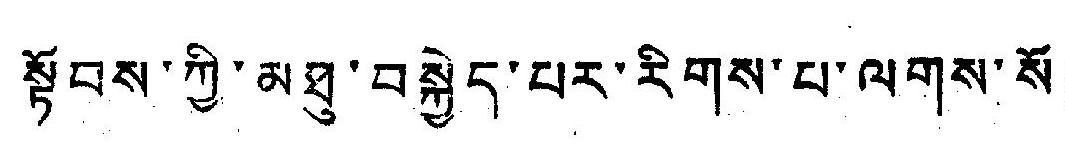སྟོབས་ཀྱི་མཐུ་བསྐྱེད་པར་རིགས་པ་ལགས་སོ།
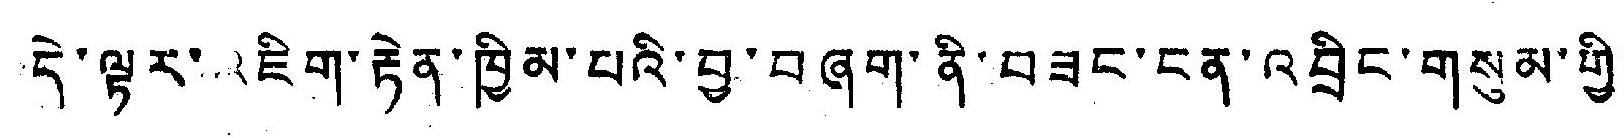དེ་ལྟར་འཇིག་རྟེན་ཁྱིམ་པའི་བྱ་བཞག་ནི་བཟང་ངན་འབྲིང་གསུམ་གྱི་
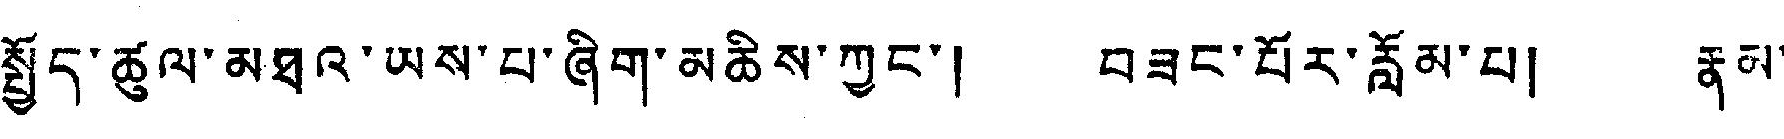སྤྱོད་ཚུལ་མཐའ་ཡས་པ་ཞིག་མཆིས་ཀྱང་། བཟང་པོར་རློམ་པ། ནམ་
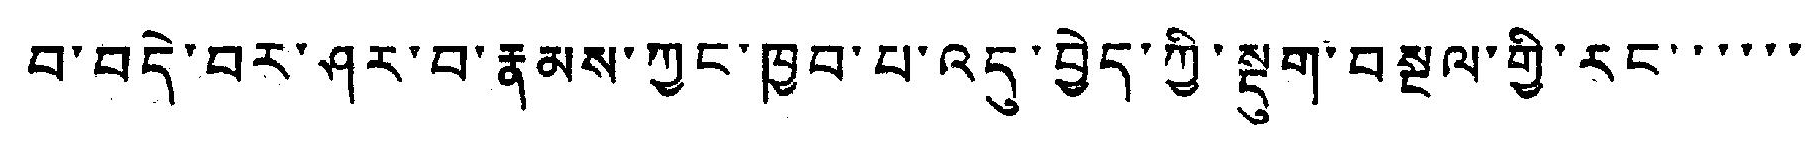བ་བདེ་བར་ཤར་བ་རྣམས་ཀྱང་ཁྱབ་པ་འདུ་བྱེད་ཀྱི་སྡུག་བསྔལ་གྱི་རང་་་་་་
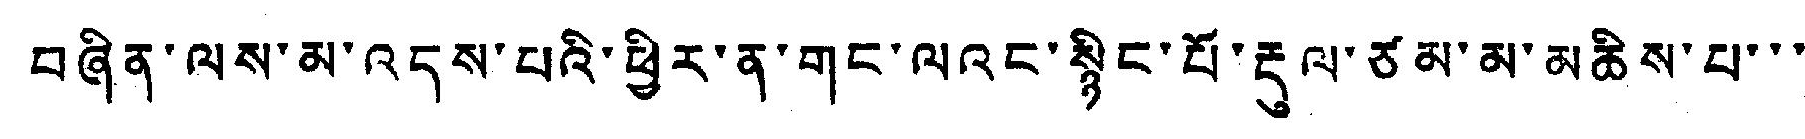བཞིན་ལས་མ་འདས་པའི་ཕྱིར་ན་གང་ལའང་སྙིང་པོ་རྡུལ་ཙམ་མ་མཆིས་པ་་་
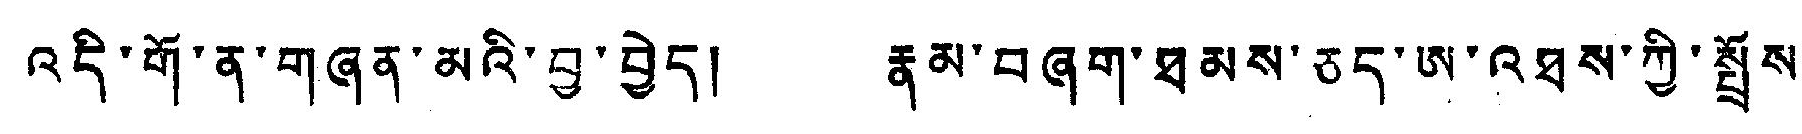འདི་གོ་ན་གཞན་མའི་བྱ་བྱེད། རྣམ་བཞག་ཐམས་ཅད་ཨ་འཐས་ཀྱི་སྤྲོས་
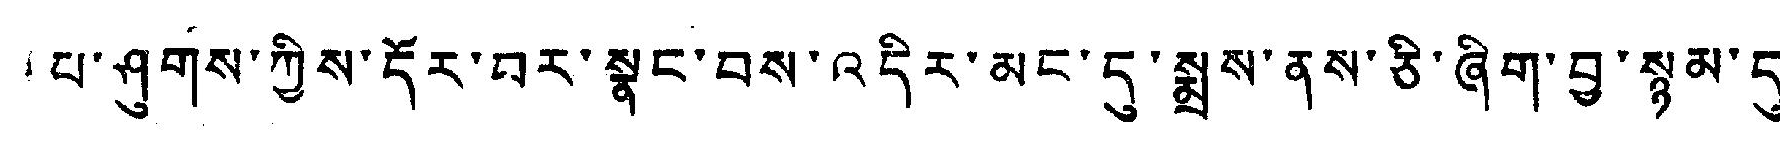པ་ཤུགས་ཀྱིས་དོར་བར་སྣང་བས་འདིར་མང་དུ་སྨྲས་ནས་ཅི་ཞིག་བྱ་སྙམ་དུ་་
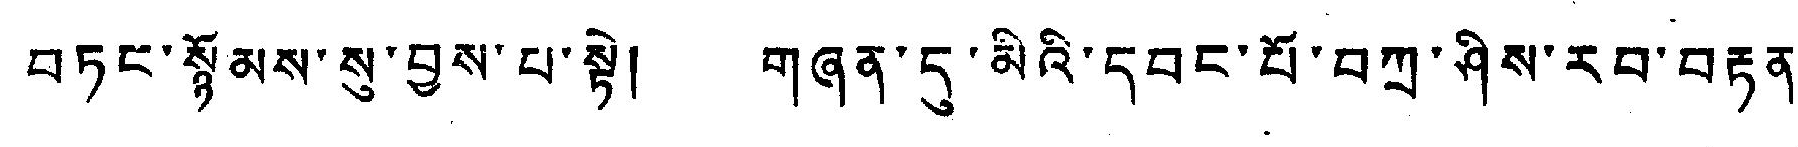བཏང་སྙོམས་སུ་བྱས་པ་སྟེ། གཞན་དུ་མིའི་དབང་པོ་བཀྲ་ཤིས་རབ་བརྟན་
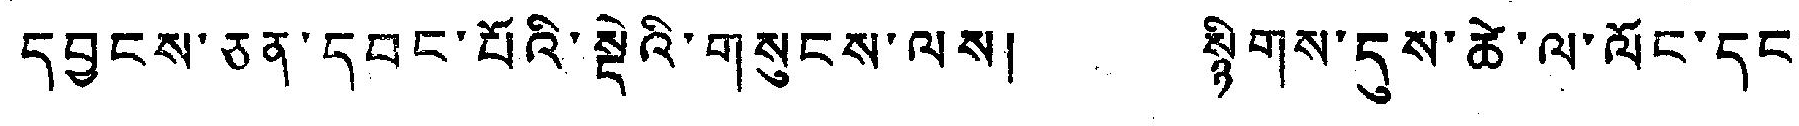དབྱངས་ཅན་དབང་པོའི་སྡེའི་གསུངས་ལས། སྙིགས་དུས་ཚེ་ལ་ལོང་དང་
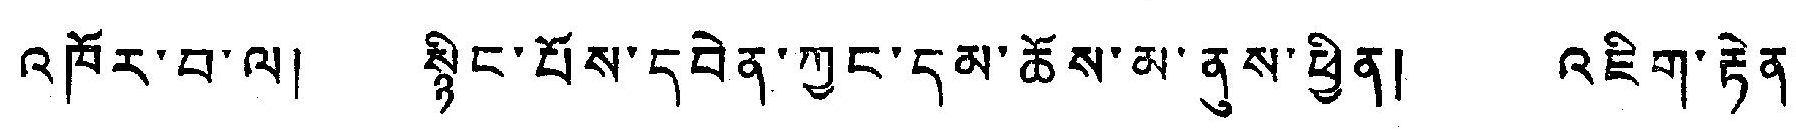འཁོར་བ་ལ། སྙིང་པོས་དབེན་ཀྱང་དམ་ཆོས་མ་ནས་ཕྱིན། འཇིག་རྟེན་
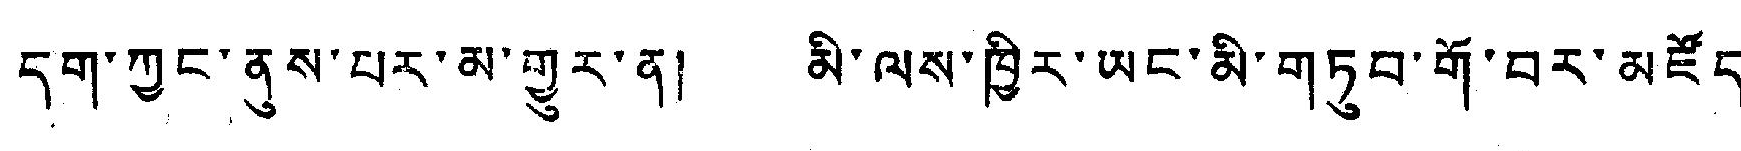དག་ཀྱང་ནུས་པར་མ་གྱུར་ན། མི་ལས་ཁྱིར་ཡང་མི་གཏུབ་གོ་བར་མཛོད།
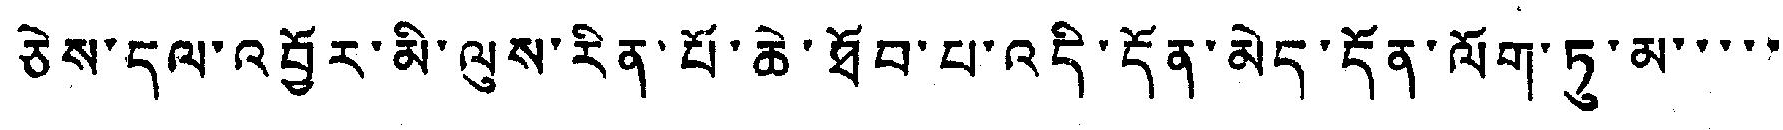ཅེས་དལ་འབྱོར་མི་ལུས་རིན་པོ་ཆེ་ཐོབ་པ་འདི་དོན་མེད་དོན་ལོག་ཏུམ་་་་་
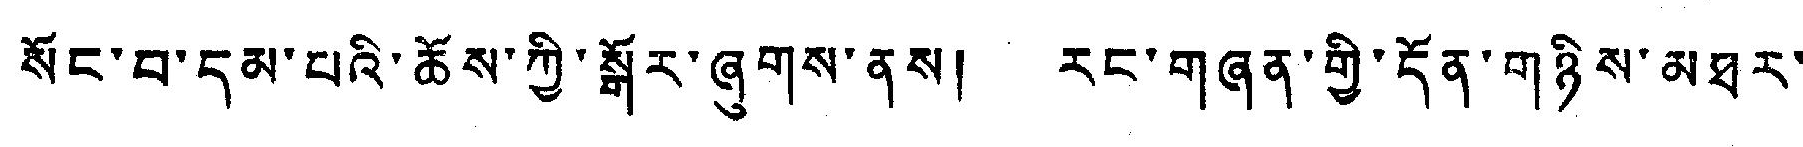སོང་བ་དམ་པའི་ཆོས་ཀྱི་སྒོར་ཞུགས་ནས། རང་གཞན་གྱི་དོན་གཉིས་མཐར་
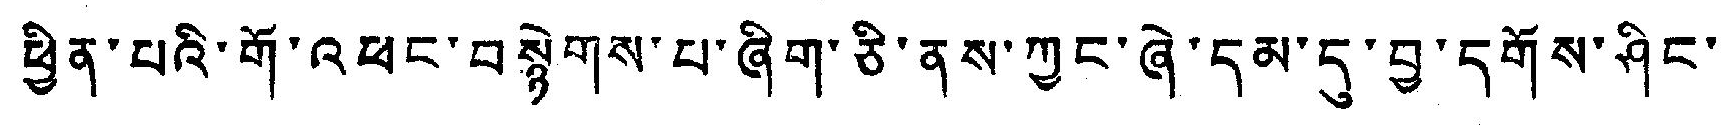ཕྱིན་པའི་གོ་འཕང་བསྙེགས་པ་ཞིག་ཅི་ནས་ཀྱང་ཞེ་དམ་དུ་བྱ་དགོས་ཤིང་།
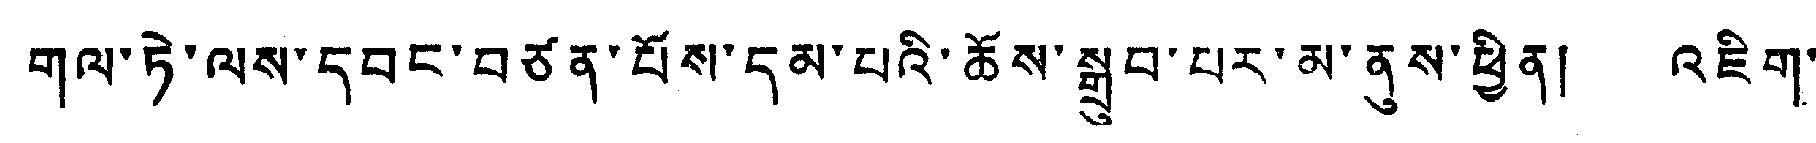གལ་ཏེ་ལས་དབང་བཙན་པོས་དམ་པའི་ཆོས་སྒྲུབ་པར་མ་ནས་ཕྱིན། འཇིག་
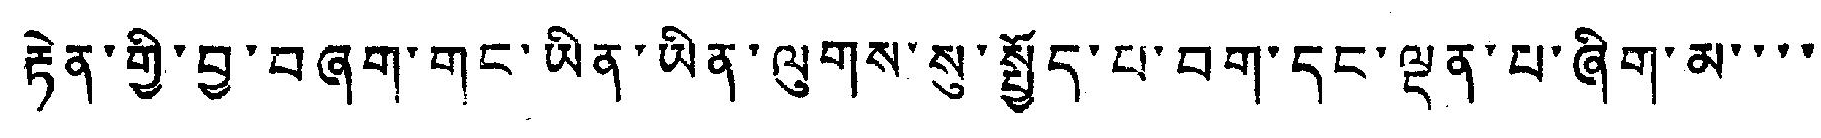རྟེན་གྱི་བྱ་བཞག་གང་ཡིན་ཡིན་ལུགས་སུ་སྤྱོད་པ་བག་དང་ལྡན་པ་ཞིག་མ་་་་
